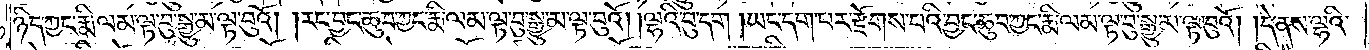ཉིད་ཀྱང་རྨི་ལམ་ལྟ་བུ་སྒྱུ་མ་ལྟ་བུའོ། །རང་བྱང་ཆུབ་ཀྱང་རྨི་ལམ་ལྟ་བུ་སྒྱུ་མ་ལྟ་བུའོ། །ལྷའི་བུ་དག །ཡང་དག་པར་རྫོགས་པའི་བྱང་ཆུབ་ཀྱང་རྨི་ལམ་ལྟ་བུ་སྒྱུ་མ་ལྟ་བུའོ། །དེ་ནས་ལྷའི་
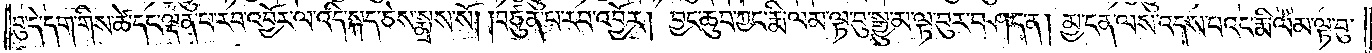བུ་དེ་དག་གིས་ཚེ་དང་ལྡན་པ་རབ་འབྱོར་ལ་འདི་སྐད་ཅེས་སྨྲས་སོ། །བཙུན་པ་རབ་འབྱོར། བྱང་ཆུབ་ཀྱང་རྨི་ལམ་ལྟ་བུ་སྒྱུ་མ་ལྟ་བུར་བཤད་ན། མྱ་ངན་ལས་འདས་པའང་རྨི་ལམ་ལྟ་བུ་
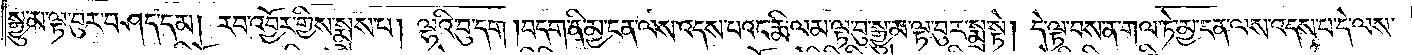སྒྱུ་མ་ལྟ་བུར་བཤད་དམ། རབ་འབྱོར་གྱིས་སྨྲས་པ། ལྷའི་བུ་དག །བདག་ནི་མྱ་ངན་ལས་འདས་པའང་རྨི་ལམ་ལྟ་བུ་སྒྱུ་མ་ལྟ་བུར་སྨྲ་སྟེ། དེ་ལྟ་བས་ན་གལ་ཏེ་མྱ་ངན་ལས་འདས་པ་དེ་ལས་
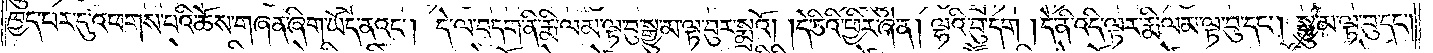ཁྱད་པར་དུ་འཕགས་པའི་ཆོས་གཞན་ཞིག་ཡོད་ནའང༌། དེ་ལ་བདག་ནི་རྨི་ལམ་ལྟ་བུ་སྒྱུ་མ་ལྟ་བུར་སྨྲའོ། །དེ་ཅིའི་ཕྱིར་ཞེ་ན། ལྷའི་བུ་དག །དེ་ནི་འདི་ལྟར་རྨི་ལམ་ལྟ་བུ་དང༌། སྒྱུ་མ་ལྟ་བུ་དང༌།
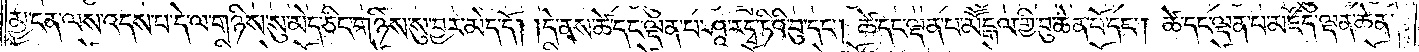མྱ་ངན་ལས་འདས་པ་དེ་ལ་གཉིས་སུ་མེད་ཅིང་གཉིས་སུ་བྱར་མེད་དོ། །དེ་ནས་ཚེ་དང་ལྡན་པ་ཤཱ་ར་དྭ་ཏིའི་བུ་དང༌། ཚེ་དང་ལྡན་པ་མཽདྒལ་གྱི་བུ་ཆེན་པོ་དང༌། ཚེ་དང་ལྡན་པ་མཛོད་ལྡན་ཆེན་
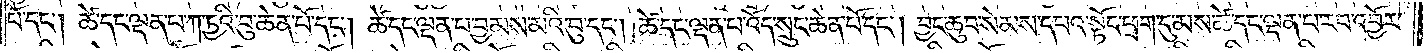པོ་དང༌། ཚེ་དང་ལྡན་པ་ཀ་ཏྱའི་བུ་ཆེན་པོ་དང༌། ཚེ་དང་ལྡན་པ་བྱམས་མའི་བུ་དང༌། ཚེ་དང་ལྡན་པ་འོད་སྲུངས་ཆེན་པོ་དང༌། བྱང་ཆུབ་སེམས་དཔའ་སྟོང་ཕྲག་དུ་མས་ཚེ་དང་ལྡན་པ་རབ་འབྱོར་
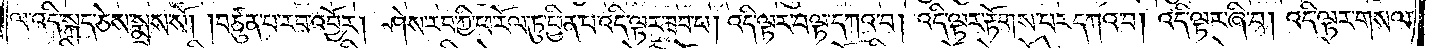ལ་འདི་སྐད་ཅེས་སྨྲས་སོ། །བཙུན་པ་རབ་འབྱོར། ཤེས་རབ་ཀྱི་ཕ་རོལ་ཏུ་ཕྱིན་པ་འདི་ལྟར་ཟབ་པ། འདི་ལྟར་བལྟ་དཀའ་བ། འདི་ལྟར་རྟོགས་པར་དཀའ་བ། འདི་ལྟར་ཞི་བ། འདི་ལྟར་གསལ་
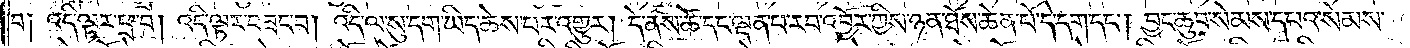བ། འདི་ལྟར་ཕྲ་བ། འདི་ལྟར་བཟང་བ། འདི་ལ་སུ་དག་ཡིད་ཆེས་པར་འགྱུར། དེ་ནས་ཚེ་དང་ལྡན་པ་རབ་འབྱོར་གྱིས་ཉན་ཐོས་ཆེན་པོ་དེ་དག་དང༌། བྱང་ཆུབ་སེམས་དཔའ་སེམས་
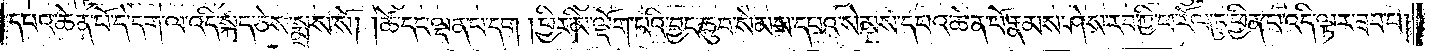དཔའ་ཆེན་པོ་དེ་དག་ལ་འདི་སྐད་ཅེས་སྨྲས་སོ། །ཚེ་དང་ལྡན་པ་དག །ཕྱིར་མི་ལྡོག་པའི་བྱང་ཆུབ་སེམས་དཔའ་སེམས་དཔའ་ཆེན་པོ་རྣམས་ཤེས་རབ་ཀྱི་ཕ་རོལ་ཏུ་ཕྱིན་པ་འདི་ལྟར་ཟབ་པ།
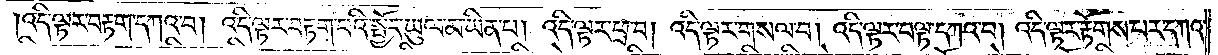འདི་ལྟར་བརྟག་དཀའ་བ། འདི་ལྟར་བརྟག་པའི་སྤྱོད་ཡུལ་མ་ཡིན་པ། འདི་ལྟར་ཕྲ་བ། འདི་ལྟར་གསལ་བ། འདི་ལྟར་བལྟ་དཀའ་བ། འདི་ལྟར་རྟོགས་པར་དཀའ་
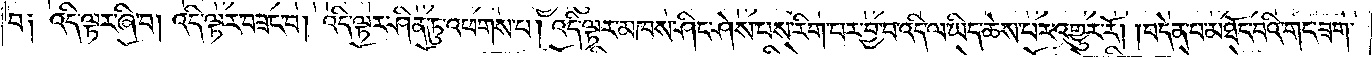བ༏ འདི་ལྟར་ཞི་བ། འདི་ལྟར་བཟང་བ། འདི་ལྟར་ཤིན་ཏུ་འཕགས་པ། འདི་ལྟར་མཁས་ཤིང་ཤེས་པས་རིག་པར་བྱ་བ་འདི་ལ་ཡིད་ཆེས་པར་འགྱུར་རོ། །བདེན་པ་མཐོང་བའི་གང་ཟག་
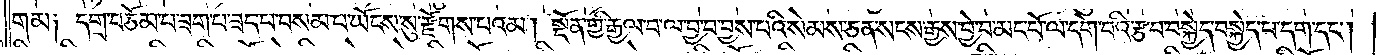གམ། དགྲ་བཅོམ་པ་ཟག་པ་ཟད་པ་བསམ་པ་ཡོངས་སུ་རྫོགས་པའམ། སྔོན་གྱི་རྒྱལ་བ་ལ་བྱ་བ་བྱས་པའི་སེམས་ཅན་སངས་རྒྱས་བྱེ་བ་མང་པོ་ལ་དགེ་བའི་རྩ་བ་བསྐྱེད་བསྐྱེད་པ་དག་དང༌།
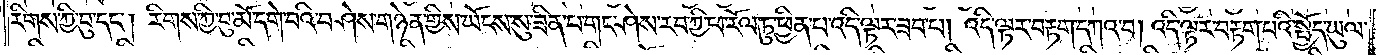རིགས་ཀྱི་བུ་དང༌། རིགས་ཀྱི་བུ་མོ་དགེ་བའི་བཤེས་གཉེན་གྱིས་ཡོངས་སུ་ཟིན་པ་གང་ཤེས་རབ་ཀྱི་ཕ་རོལ་ཏུ་ཕྱིན་པ་འདི་ལྟར་ཟབ་པ། འདི་ལྟར་བརྟག་དཀའ་བ། འདི་ལྟར་བརྟག་པའི་སྤྱོད་ཡུལ་
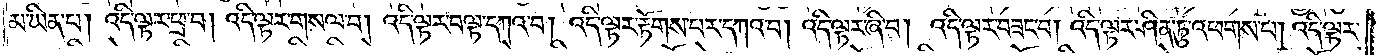མ་ཡིན་པ། འདི་ལྟར་ཕྲ་བ། འདི་ལྟར་གསལ་བ། འདི་ལྟར་བལྟ་དཀའ་བ། འདི་ལྟར་རྟོགས་པར་དཀའ་བ། འདི་ལྟར་ཞི་བ། འདི་ལྟར་བཟང་བ། འདི་ལྟར་ཤིན་ཏུ་འཕགས་པ། འདི་ལྟར་
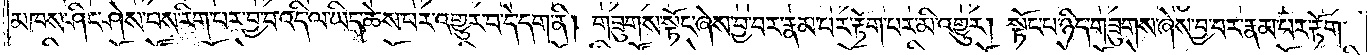མཁས་ཤིང་ཤེས་པས་རིག་པར་བྱ་བ་འདི་ལ་ཡིད་ཆེས་པར་འགྱུར་བ་དེ་དག་ནི། གཟུགས་སྟོང་ཞེས་བྱ་བར་རྣམ་པར་རྟོག་པར་མི་འགྱུར། སྟོང་པ་ཉིད་གཟུགས་ཞེས་བྱ་བར་རྣམ་པར་རྟོག་
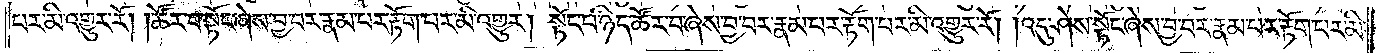པར་མི་འགྱུར་རོ། །ཚོར་བ་སྟོང་ཞེས་བྱ་བར་རྣམ་པར་རྟོག་པར་མི་འགྱུར། སྟོང་པ་ཉིད་ཚོར་བ་ཞེས་བྱ་བར་རྣམ་པར་རྟོག་པར་མི་འགྱུར་རོ། །འདུ་ཤེས་སྟོང་ཞེས་བྱ་བར་རྣམ་པར་རྟོག་པར་མི་
